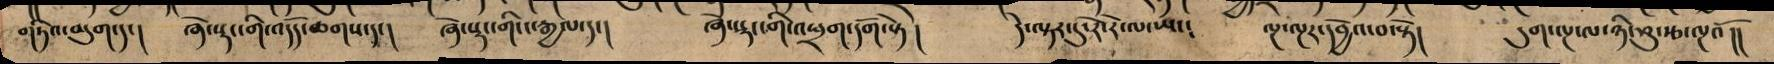གཏིའ་མུག་དང། ཞེ་སྡང་གི་འདོད་ཆགས་དང། ཞེ་སྡང་གི་ང་རྒྱལ་དང། ཞེ་སྡང་གི་འཕྲག་དོག་སྟེ། དེ་ལྟར་དུ་རེ་རེ་ལ་ཡང༴ ལྔ་ལྔར་དབྱེའ་བ་སྟེ། དུག་ལྔ་ལ་ཉི་ཤུ་རྩ་ལྔའོ།།
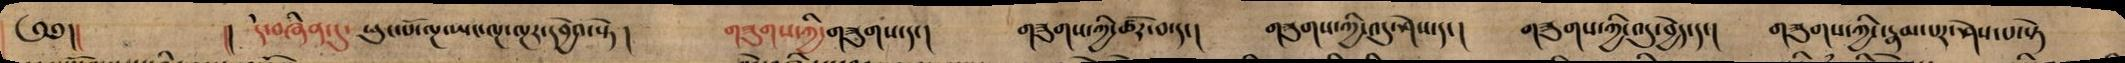༄༅། །། དེ་བཞིན་དུ་ཕུང་པོ་ལྔ་ཡང་ལྔ་ལྔར་དབྱེའ་སྟེ། གཟུགས་ཀྱི་གཟུགས་དང། གཟུགས་ཀྱི་ཚོར་བ་དང། གཟུགས་ཀྱི་འདུ་ཤེས་དང། གཟུགས་ཀྱི་འདུ་བྱེད་དང། གཟུགས་ཀྱི་རྣམ་པར་ཤེས་པ་སྟེ
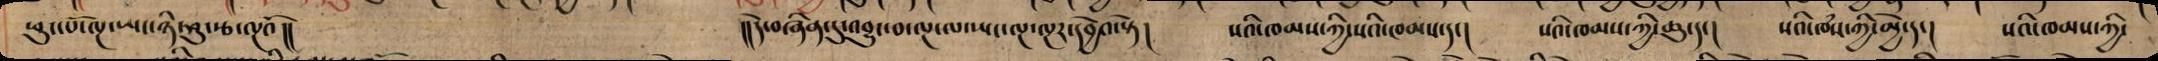ཕུང་པོ་ལྔ་ཡང་ཉི་ཤུ་རྩ་ལྔའོ།། །།དེ་བཞིན་དུ་འབྱུང་བ་ལྔ་ལ་ཡང་ལྔ་ལྔར་དབྱེའ་སྟེ། སའི་ཁམས་ཀྱིས་ཁམས་དང། སའི་ཁམས་ཀྱི་ཆུ་དང། སའི་ཁཾས་ཀྱི་མྱེ་དང། སའི་ཁམས་ཀྱི་
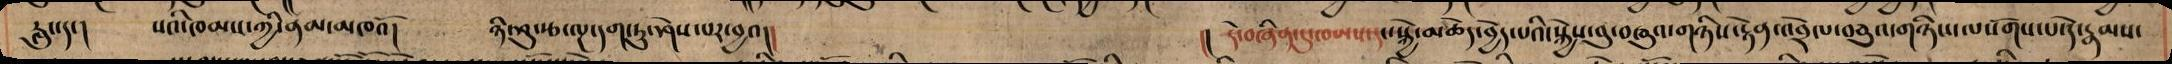རླུང་དང། སའི་ཁམས་ཀྱི་ནམ་མཁའོ། ཉི་ཤུ་རྩ་ལྔ་དག་ཏུ་ཤེས་པར་བྱའ།། །། དེ་བཞིན་དུ་ཁམས་དང་སྐྱེ་མཆེད་བྱེད་པའི་སྐྱེས་བུ་བཅུའ་གཉིས་རྟེན་འབྲེལ་བཅུའ་གཉིས་ལསོགས་པ་དེ་རྣམས་
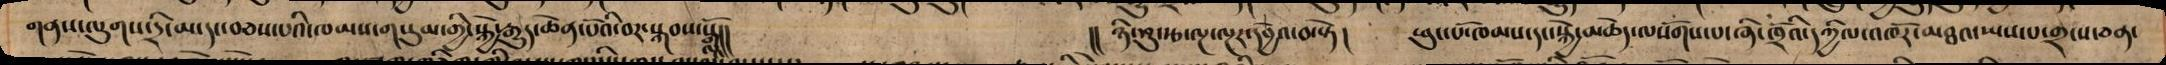གནས་ལུགས་དྲི་མ་དང་བཅས་པའི་ཁམས་གསུམ་གྱི་སྐྱེ་རྒྱུད་ཆེན་པོའི་བར་སྐབས་སོ།། །། ཉི་ཤུ་རྩ་ལྔ་ལྔར་དབྱེའ་བ་སྟེ། ཕུང་པོ་ཁམས་དང་སྐྱེ་མཆེད་ལསོགས་པ་ཞི་ཁྲོའི་དཀྱིལ་འཁོར་མཐའ་ཡས་པ་གྲངས་ཅན་
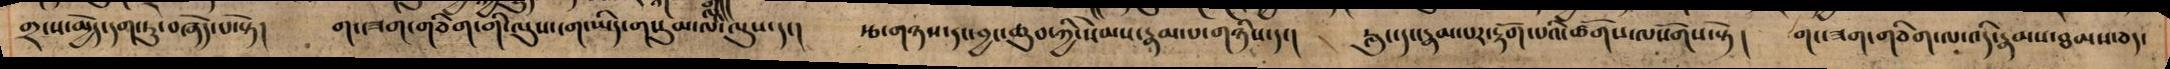གྲངས་མྱེད་དག་ཏུ་བཞེད་པ་སྟེ། གང་ཟག་གཅིག་གི་ལུས་ངག་ཡིད་གསུམ་ལ་ལུས་དང། རྩ་གཉིས་དང་བྱང་ཆུབ་ཀྱི་སེམས་རྣམ་པ་གཉིས་དང། རླུང་དང་རྣམ་པར་རྟོག་པའི་ཚོགས་ལསོགས་སྟེ། གང་ཟག་གཅིག་ལ་འདི་རྣམས་ཐམས་ཅད་
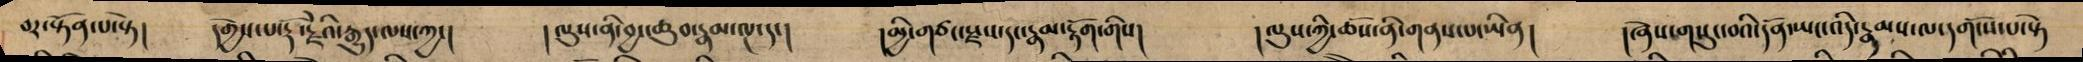བར་སྟོན་པ་སྟེ། དགྱེས་པ་རྡོ་རྗེའི་རྒྱུད་ལས་ཀྱང། །ལུས་ནི་བྱང་ཆུབ་རྣམ་ལྔ་དང། །མྱི་གཙང་སྫས་དང་རྣམ་རྟོག་གིས། །ལུས་ཀྱི་ཆོས་ནི་གནས་པ་ཡིན། །ཞེས་གསུང་བའི་དོན་ཡང་འདི་རྣམས་ལ་དགོངས་པ་སྟེ
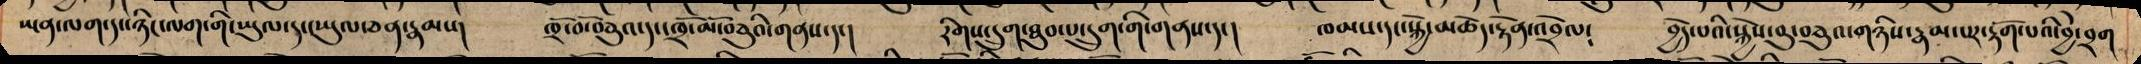ཡན་ལག་དང་ཉིང་ལག་གི་ཡུལ་དང་ཡུལ་ཅན་རྣམས། ཁྲོ་བོ་བཅུའ་དང་ཁྲོ་མོ་བཅུའི་གནས་དང། རིགས་དྲུག་ཐུབ་པ་དྲུག་གི་གནས་དང། ཁམས་དང་སྐྱེ་མཆེད་རྟེན་འབྲེལ༴ བྱེད་པའི་སྐྱེས་བུ་བཅུའ་གཉིས་རྣམ་པར་རྟོག་པའི་བྱེ་བྲག
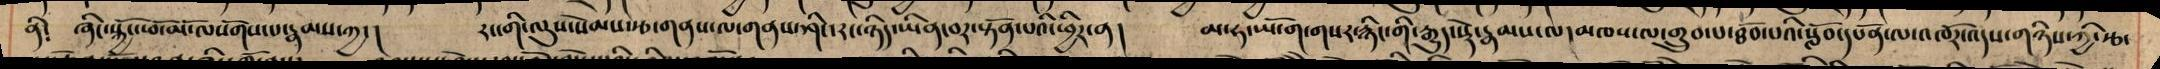ནི༴ ཞིང་སྐྱོང་ཕོ་མོ་ལ་སོགས་པ་རྣམས་ཀྱང། རང་གི་ལུས་སེམས་རྩ་གནས་ལ་གནས་ཤིང་རང་ཉིད་ཡིན་བར་སྟོན་པའི་ཕྱིར་ན། མ་ཧ་ཡོ་ག་གསར་རྙིང་གི་རྒྱུད་སྡེ་རྣམས་ལ་མཁས་ལ་གྲུབ་པ་ཐོབ་པའི་སློབ་དཔོན་ལ་འཁོར་འདས་གཉིས་ཀྱི་རྩ་
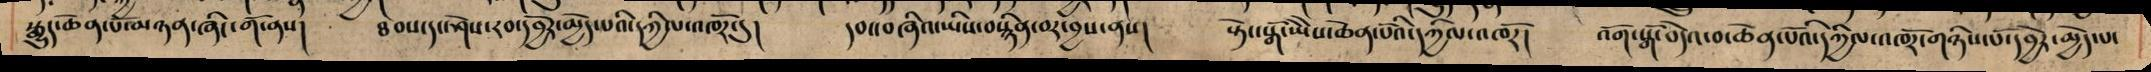སྒྱུད་ཆེན་པོ་མཉན་ཞིང་གོ་ནས། ཐབས་དང་ཤེས་རབ་དབྱེར་མྱེད་པའི་དཀྱིལ་འཁོར་དུ། དབང་བཞིའ་ཡིས་བསྙིན་བར་བྱས་ནས། སྟེང་སྒོ་ཡཻས་ཆེན་པོའི་དཀྱིལ་འཁོར། འོག་སྒོ་བདེའ་བ་ཆེན་པོའི་དཀྱིལ་འཁོར་གཉིས་པོ་དབྱེར་མྱེད་པ་
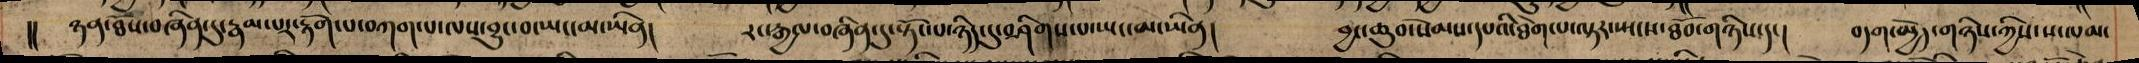།། ཉན་ཐོས་བཞིན་དུ་རྣམ་པར་རྟོག་པ་བཀག་པ་ལས་བྱུང་བ་ཡང་མ་ཡིན། རང་རྒྱལ་བཞིན་དུ་སྟོང་པ་ཉིད་དུ་བཤིགས་པ་ཡང་མ་ཡིན། བྱང་ཆུབ་སེམས་དཔའི་ཐེག་པ་ལྟར་སྤངས་ཐོབ་གཉིས་དང། བདག་མྱེད་གཉིས་ཀྱིས་ས་ལམ་
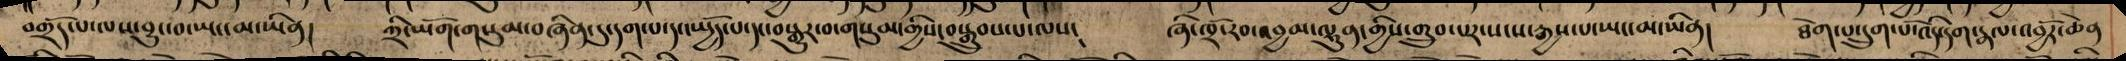བགྲོད་པ་ལས་བྱུང་བ་ཡང་མ་ཡིན། ཀྲི་ཡོག་གསུམ་བཞིན་དུ་དག་པ་དང་སྤྱོད་པ་དང་བསྒྱུར་བ་གསུམ་གྱིས་བསྒྲུབས་པ་ལས། ཞི་ཁྲོ་རབ་འབྱམ་ལྷུན་གྱིས་གྲུབ་པར་སངས་རྒྱས་པ་ཡང་མ་ཡིན། ཐེག་པ་དྲུག་པོ་འདི་དག་རྣལ་འབྱོར་ཆེན
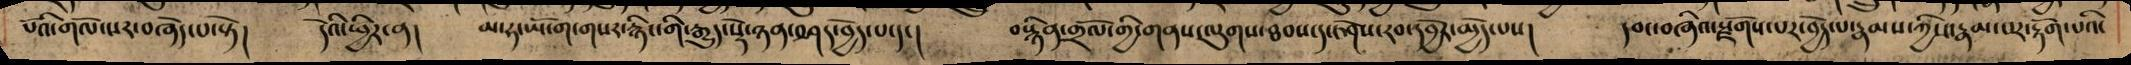པོའི་གོལ་སར་བཞེད་པ་སྟེ། དེའི་ཕྱིར་ན། མ་ཧ་ཡོ་ག་གསར་རྙིང་གི་རྒྱུད་སྡེ་ཉན་བཤད་བྱེད་པ་དང། བསྙིན་གྲོལ་གྱི་གནས་ལུགས་ཐབས་དང་ཤེས་རབ་དབྱེར་མྱེད་པས། དབང་བཞིའ་སྫོགས་པར་བྱེད་པ་རྣམས་ཀྱིས་རྣམ་པར་རྟོག་པའི་
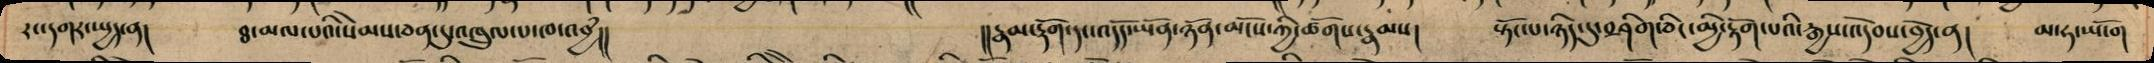རང་དགར་སྤྱད་ན། ཐ་མལ་པའི་སེམས་ཅན་དུ་འཁྲུལ་པ་ཁ་འབྱ།། །།རྣམ་རྟོག་དང་འདོད་ཡོན་ཉོན་མོངས་ཀྱི་ཚོགས་རྣམས། སྟོང་པ་ཉིད་དུ་བཤིག་ཅིང་མྱི་རྟོག་པཔའི་རྒྱས་འདེབས་བྱེད་ན། མ་ཧ་ཡོ་ག
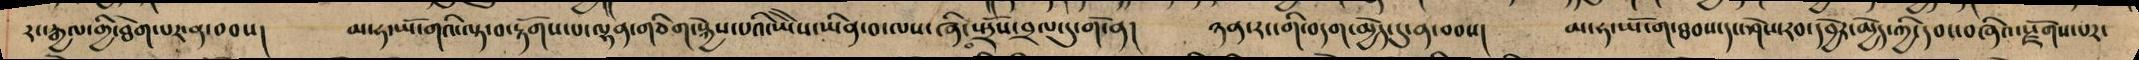རང་རྒྱལ་གྱི་ཐེག་པར་ན་བབས།   མ་ཧ་ཡོ་གའི་ལྟ་བ་རྟོགས་པ་ལྷན་གཅིག་སྐྱེས་པའི་ཡེེས་ཡིན་པ་ལས་ཞིང་སྤྲོས་བྲལ་དུ་གོ་ན།   ཉན་རང་གི་བདག་མྱེད་དུ་ན་བཅས།   མ་ཧ་ཡོ་ག་ཐབས་དང་ཤེས་རབ་དབྱེར་མྱེད་ཀྱི་དབང་བཞིའ་རྫོགས་པར་
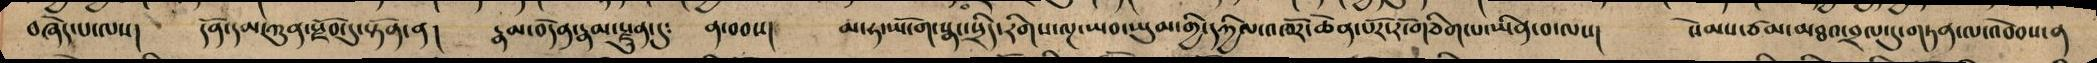བཞེད་པ་ལས། དོན་དམ་ཀུན་སྫོབ་དུ་སྟོན་ན། རྣམ་བདེན་རྣམ་སྫུན་དུ༴ ན་བབས། མ་ཧ་ཡོ་ག་སྣང་སྲིད་རིགས་ལྔ་ཡབ་ཡུམ་གྱི་དཀྱིལ་འཁོར་ཆེན་པོར་རོ་གཅིག་པ་ཡིན་བ་ལས། སེམས་ཙམ་མཐའ་བྲལ་དུ་གཏན་ལ་འབེབས་ན
